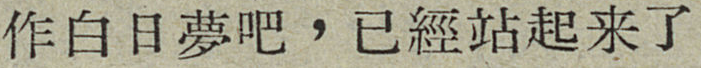作白日夢吧，已經站起来了
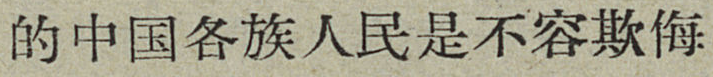的中国各族人民是不容欺侮
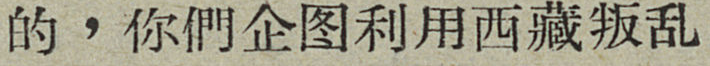的，你們企图利用西藏叛乱
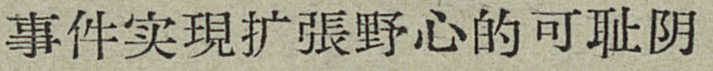事件实現扩張野心的可耻阴
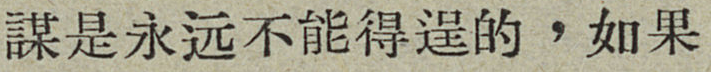謀是永远不能得逞的，如果
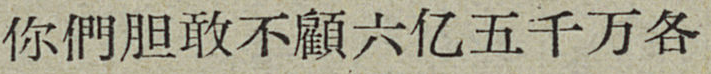你們胆敢不顧六亿五千万各
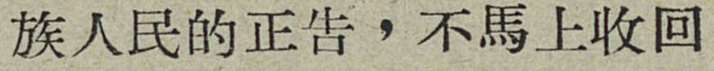族人民的正告，不馬上收回
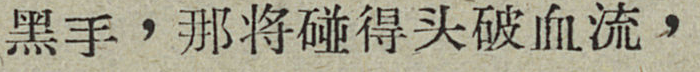黑手，那将碰得头破血流，
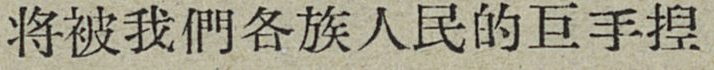将被我們各族人民的巨手捏
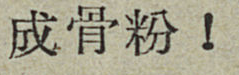成骨粉！
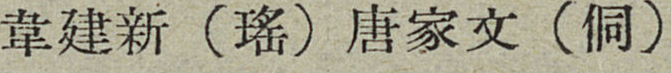韋建新（瑤）唐家文（侗）
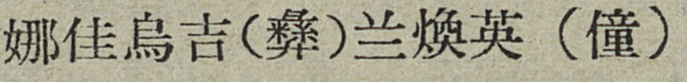娜佳烏吉（彝）兰煥英（僮）
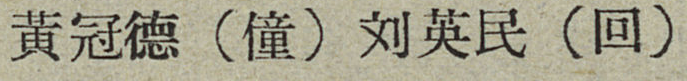黃冠德（僮）刘英民（回）
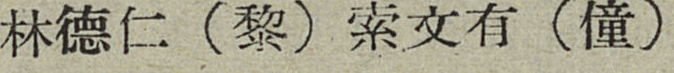林德仁（黎）索文有（僮）
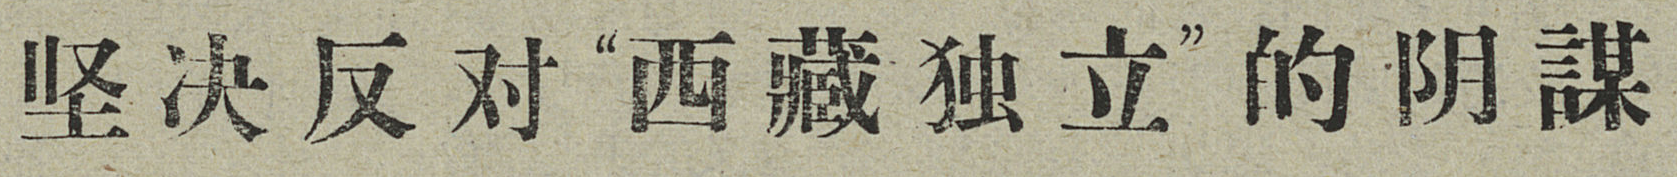坚决反对“西藏独立”的阴謀
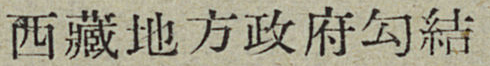西藏地方政府勾結
